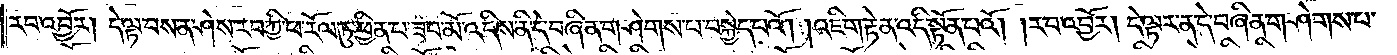རབ་འབྱོར། དེ་ལྟ་བས་ནང་ཤེས་རབ་ཀྱི་ཕ་རོལ་ཏུ་ཕྱིན་པ་ཟབ་མོ་འདིས་ནི་དེ་བཞིན་གཤེགས་པ་བསྐྱེད་པའོ། །འཇིག་རྟེན་འདི་སྟོན་པའོ། །རབ་འབྱོར། དེ་ལྟར་ན་དེ་བཞིན་གཤེགས་པ་
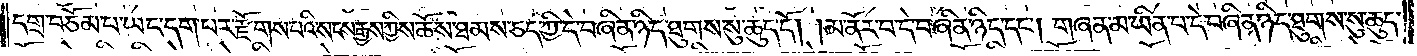དགྲ་བཅོམ་པ་ཡང་དག་པར་རྫོགས་པའི་སངས་རྒྱས་ཀྱིས་ཆོས་ཐམས་ཅད་ཀྱི་དེ་བཞིན་ཉིད་ཐུགས་སུ་ཆུད་དོ། །མ་ནོར་བ་དེ་བཞིན་ཉིད་དང༌། གཞན་མ་ཡིན་པ་དེ་བཞིན་ཉིད་ཐུགས་སུ་ཆུད་
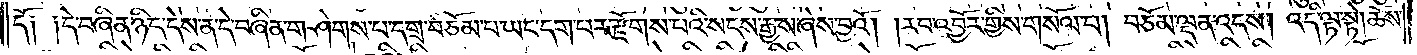དོ༑ ༑དེ་བཞིན་ཉིད་དེས་ན་དེ་བཞིན་གཤེགས་པ་དགྲ་བཅོམ་པ་ཡང་དག་པར་རྫོགས་པའི་སངས་རྒྱས་ཞེས་བྱའོ། །རབ་འབྱོར་གྱིས་གསོལ་པ། བཅོམ་ལྡན་འདས། འདི་ལྟ་སྟེ། ཆོས་
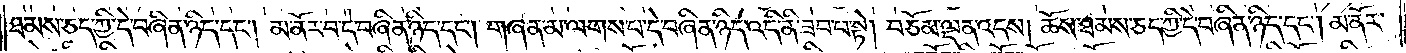ཐམས་ཅད་ཀྱི་དེ་བཞིན་ཉིད་དང༌། མ་ནོར་བ་དེ་བཞིན་ཉིད་དང༌། གཞན་མ་ལགས་པ་དེ་བཞིན་ཉིད་འདི་ནི་ཟབ་པ་སྟེ། བཅོམ་ལྡན་འདས། ཆོས་ཐམས་ཅད་ཀྱི་དེ་བཞིན་ཉིད་དང༌། མ་ནོར་
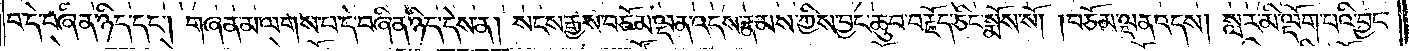བ་དེ་བཞིན་ཉིད་དང༌། གཞན་མ་ལགས་པ་དེ་བཞིན་ཉིད་དེས་ན། སངས་རྒྱས་བཅོམ་ལྡན་འདས་རྣམས་ཀྱིས་བྱང་ཆུབ་བརྗོད་ཅིང་སྨོས་སོ། བཅོམ་ལྡན་འདས། སླར་མི་ལྡོག་པའི་བྱང་
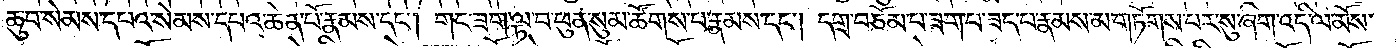ཆུབ་སེམས་དཔའ་སེམས་དཔའ་ཆེན་པོ་རྣམས་དང༌། གང་ཟག་ལྟ་བ་ཕུན་སུམ་ཚོགས་པ་རྣམས་དང༌། དགྲ་བཅོམ་པ་ཟག་པ་ཟད་པ་རྣམས་མ་གཏོགས་པར་སུ་ཞིག་འདི་ལ་མོས་
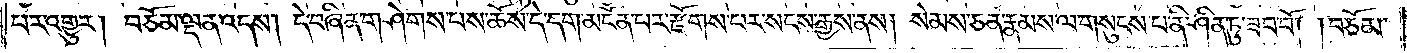པར་འགྱུར། བཅོམ་ལྡན་འདས། དེ་བཞིན་གཤེགས་པས་ཆོས་དེ་དག་མངོན་པར་རྫོགས་པར་སངས་རྒྱས་ནས། སེམས་ཅན་རྣམས་ལ་གསུངས་པ་ནི་ཤིན་ཏུ་ཟབ་བོ། །བཅོམ་
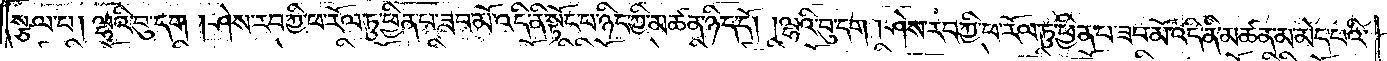སྩལ་པ། ལྷའི་བུ་དག། ཤེས་རབ་ཀྱི་ཕ་རོལ་ཏུ་ཕྱིན་པ་ཟབ་མོ་འདི་ནི་སྟོང་པ་ཉིད་ཀྱི་མཚན་ཉིད་དོ། །ལྷའི་བུ་དག། ཤེས་རང་ཀྱི་ཕ་རོལ་ཏུ་ཕྱིན་པ་ཟབ་མོ་འདི་ནི་མཚན་མ་མེད་པའི་
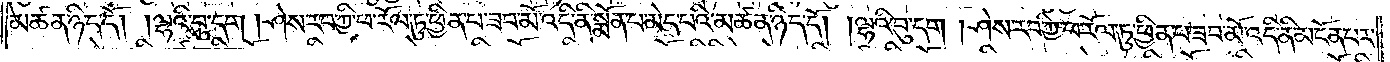མཚན་ཉིད་དོ། །ལྷའི་བུ་དག། ཤེས་རབ་ཀྱི་ཕ་རོལ་ཏུ་ཕྱིན་པ་ཟབ་མོ་འདི་ནི་སྨོན་པ་མེད་པའི་མཚན་ཉིད་དོ། །ལྷའི་བུ་དག། ཤེས་རབ་ཀྱི་ཕ་རོལ་ཏུ་ཕྱིན་པ་ཟབ་མོ་འདི་ནི་མངོན་པར་
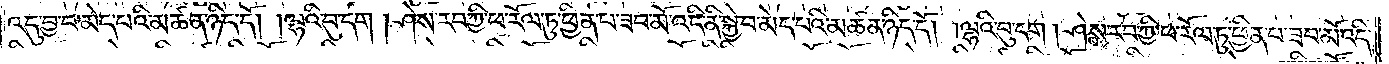འདུ་བྱ་བ་མེད་པའི་མཚན་ཉིད་དོ། །ལྷའི་བུ་དག། ཤེས་རབ་ཀྱི་ཕ་རོལ་ཏུ་ཕྱིན་པ་ཟབ་མོ་འདི་ནི་སྐྱེ་བ་མེད་པའི་མཚན་ཉིད་དོ། །ལྷའི་བུ་དག། ཤེས་རབ་ཀྱི་ཕ་རོལ་ཏུ་ཕྱིན་པ་ཟབ་མོ་འདི་
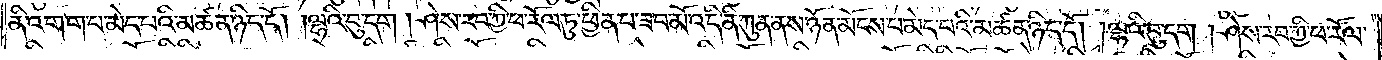ནི་འགག་པ་མེད་པའི་མཚན་ཉིད་དོ། །ལྷའི་བུ་དག། ཤེས་རབ་ཀྱི་ཕ་རོལ་ཏུ་ཕྱིན་པ་ཟབ་མོ་འདི་ནི་ཀུན་ནས་ཉོན་མོངས་པ་མེད་པའི་མཚན་ཉིད་དོ། །ལྷའི་བུ་དག། ཤེས་རབ་ཀྱི་ཕ་རོལ་
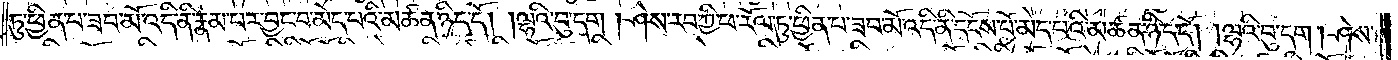ཏུ་ཕྱིན་པ་ཟབ་མོ་འདི་ནི་རྣམ་པར་བྱང་བ་མེད་པའི་མཚན་ཉིད་དོ། །ལྷའི་བུ་དག། ཤེས་རབ་ཀྱི་ཕ་རོལ་ཏུ་ཕྱིན་པ་ཟབ་མོ་འདི་ནི་དངོས་པོ་མེད་པའི་མཚན་ཉིད་དོ། །ལྷའི་བུ་དག། ཤེས་
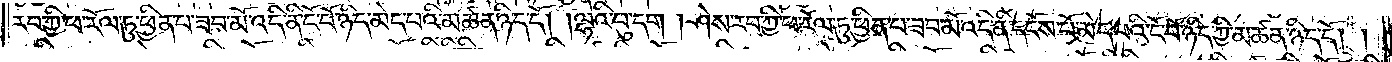རབ་ཀྱི་ཕ་རོལ་ཏུ་ཕྱིན་པ་ཟབ་མོ་འདི་ནི་ངོ་བོ་ཉིད་མེད་པའི་མཚན་ཉིད་དོ། །ལྷའི་བུ་དག། ཤེས་རབ་ཀྱི་ཕ་རོལ་ཏུ་ཕྱིན་པ་ཟབ་མོ་འདི་ནི་དངོས་པོ་མེད་པའི་ངོ་བོ་ཉིད་ཀྱི་མཚན་ཉིད་དོ། །
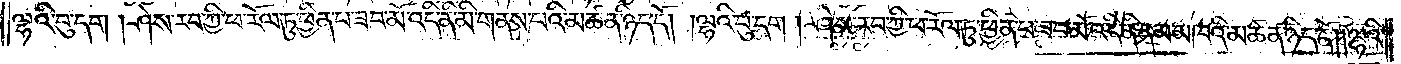ལྷའི་བུ་དག། །ཤེས་རབ་ཀྱི་ཕ་རོལ་ཏུ་ཕྱིན་པ་ཟབ་མོ་འདི་ནི་མི་གནས་པའི་མཚན་ཉིད་དོ། །ལྷའི་བུ་དག། ཤེས་རབ་ཀྱི་ཕ་རོལ་ཏུ་ཕྱིན་པ་ཟབ་མོ་འདི་ནི་ནམ་མཁའི་མཚན་ཉིད་དོ། །ལྷའི་
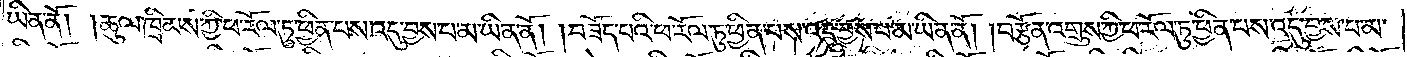ཡིན་ནོ། །ཚུལ་ཁྲིམས་ཀྱི་ཕ་རོལ་ཏུ་ཕྱིན་པས་འདུ་བྱས་པ་མ་ཡིན་ནོ། །བཟོད་པའི་ཕ་རོལ་ཏུ་ཕྱིན་པས་འདུ་བྱས་པ་མ་ཡིན་ནོ། །བརྩོན་འགྲུས་ཀྱི་ཕ་རོལ་ཏུ་ཕྱིན་པས་འདུ་བྱས་པ་མ་
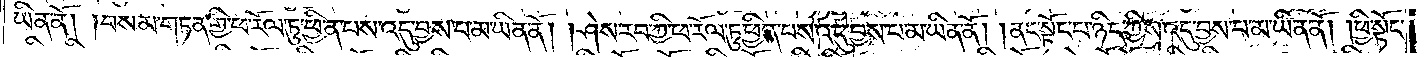ཡིན་ནོ། །བསམ་གཏན་གྱི་ཕ་རོལ་ཏུ་ཕྱིན་པས་འདུ་བྱས་པ་མ་ཡིན་ནོ། །ཤེས་རབ་ཀྱི་ཕ་རོལ་ཏུ་ཕྱིན་པས་འདུ་བྱས་པ་མ་ཡིན་ནོ། །ནང་སྟོང་པ་ཉིད་ཀྱིས་འདུ་བྱས་པ་མ་ཡིན་ནོ། །ཕྱི་སྟོང་
